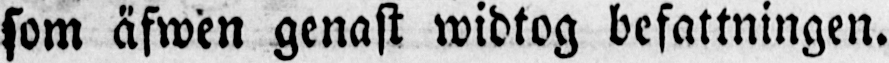som äfwen genast widtog befattningen.
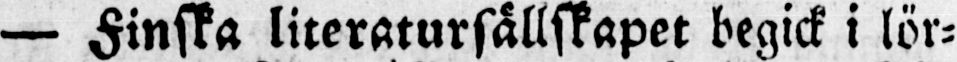— Finska literatursällskapet begick i lör-
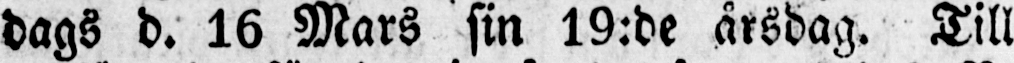dags d. 16 Mars sin 19:de årsdag. Till
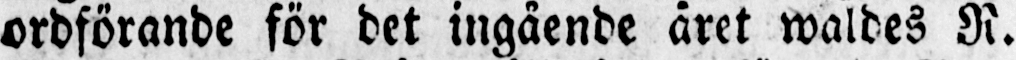ordförande för det ingående året waldes R.
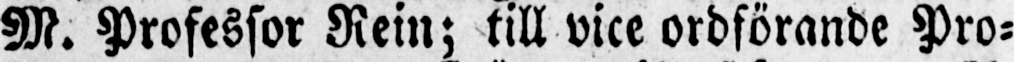M. Professor Rein; till vice ordförande Pro-
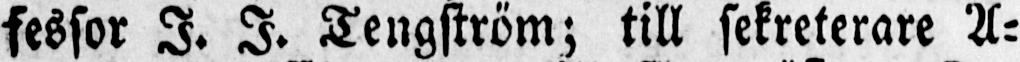fessor I. I. Tengström; till sekreterare A-
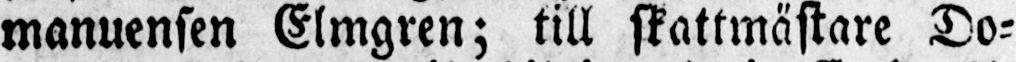manuensen Elmgren; till skattmästare Do-
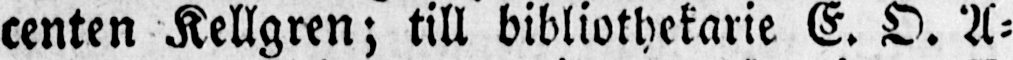centen Kellgren; till bibliothekarie E. O. A-
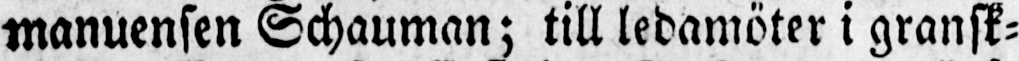manuensen Schauman; till ledamöter i gransk-
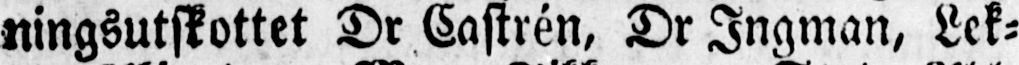ningsutskottet Dr Castrén, Dr Ingman, Lek-
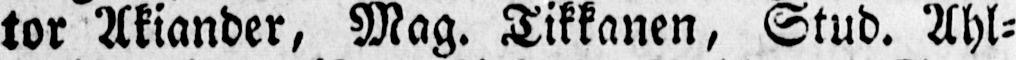tor Akiander, Mag. Tikkanen, Stud. Ahl-
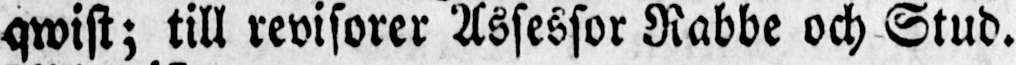qwist; till revisorer Assessor Rabbe och Stud.
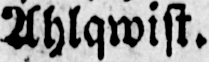Ahlqwist.
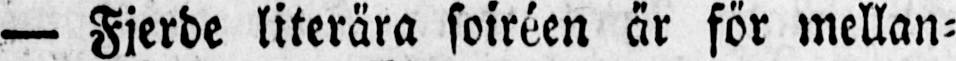— Fjerde literära soiréen är för mellan-
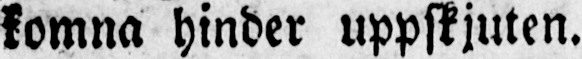komna hinder uppskjuten.
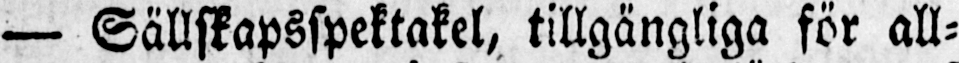— Sällskapsspektakel, tillgängliga för all-
